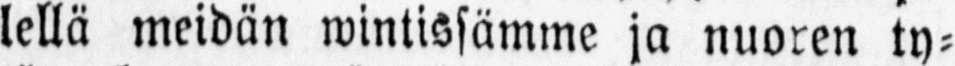lellä meidän wintissämme ja nuoren ty-
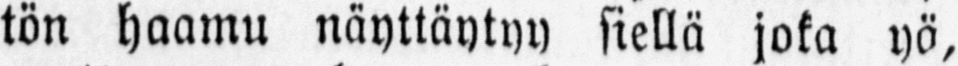tön haamu näyttäytyy siellä joka yö,
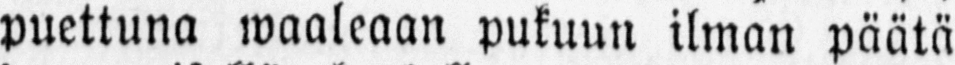puettuna waaleaan pukuun ilman päätä
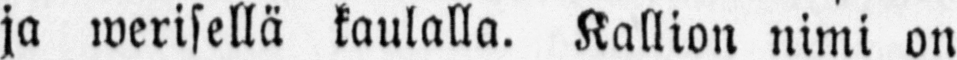ja werisellä kaulalla. Kallion nimi on
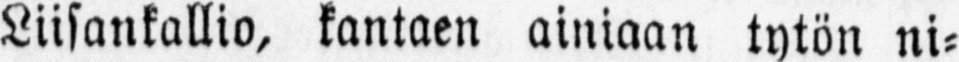Liisankallio, kantaen ainiaan tytön ni-
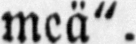meä".
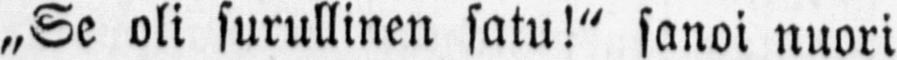„Se oli surullinen satu!" sanoi nuori
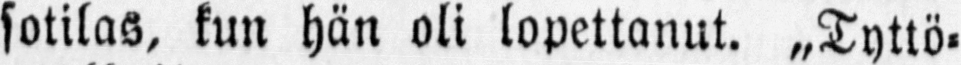sotilas, kun hän oli lopettanut. „Tyttö-
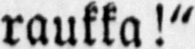raukka!"
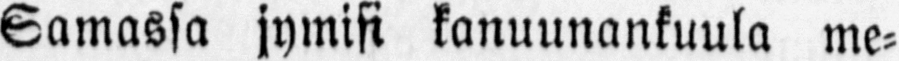Samassa jymisi kanuunankuula me-
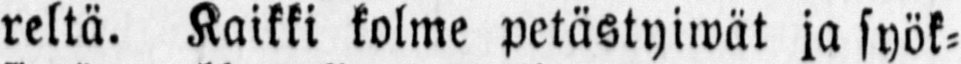reltä. Kaikki kolme petästyiwät ja syök-
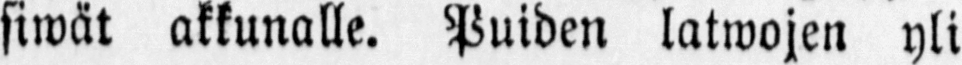siwät akkunalle. Puiden latwojen yli
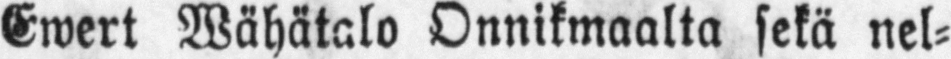Ewert Wähätalo Onnikmaalta sekä nel-
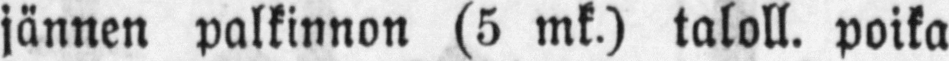jännen palkinnon (5 mk.) taloll. poika
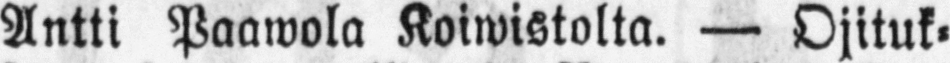Antti Paawola Koiwistolta. — Ojituk-
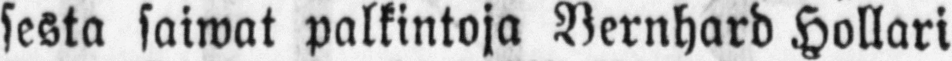sesta saiwat palkintoja Bernhard Hollari
